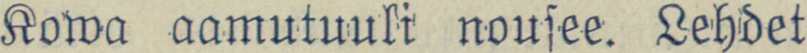Kowa aamutuuli nousee. Lehdet
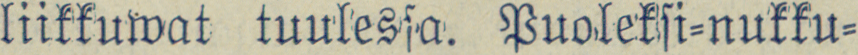liikkuwat tuulessa. Puoleksi-nukku-
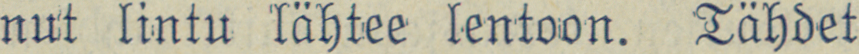nut lintu lähtee lentoon. Tähdet
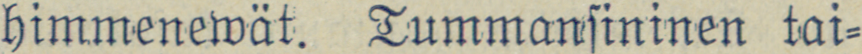himmenewät. Tummansininen tai-
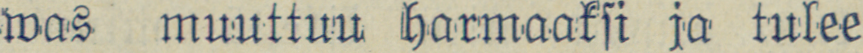was muuttuu harmaaksi ja tulee
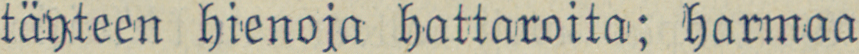täyteen hienoja hattaroita; harmaa
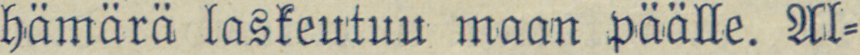hämärä laskeutuu maan päälle. Al-
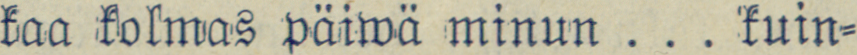kaa kolmas päiwä minun . . . kuin-
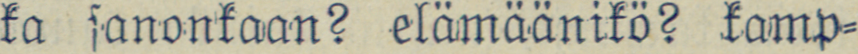ka sanonkaan? elämäänikö? kamp-
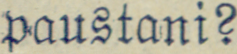paustani?
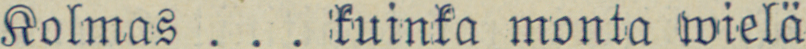Kolmas . . . kuinka monta wielä
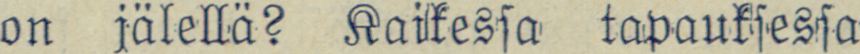on jälellä? Kaikessa tapauksessa
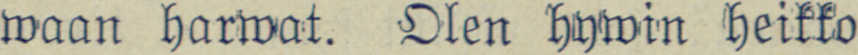waan harwat. Olen hywin heikko
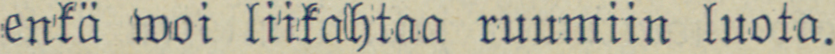enkä woi liikahtaa ruumiin luota.
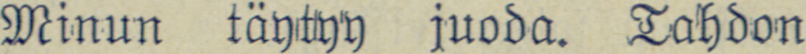Minun täytyy juoda. Tahdon
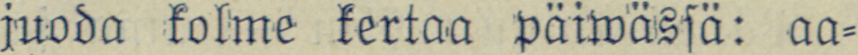juoda kolme kertaa päiwässä: aa-
